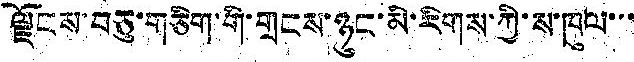ལྗོངས་བཅུ་གཅིག་གི་གྲངས་ཉུང་མི་རིགས་ཀྱི་ས་ཁུལ་་་
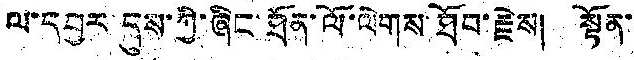ལ་དབྱར དུས་ཀྱི་ཞིང་ཐོན་ལོ་ལེགས་ཐོབ་རྗེས། སྟོན་
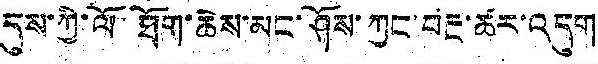དུས་ཀྱི་ལོ་ཐོག་ཆེས་མང་ཤོས་ཀྱང་བརྔ་ཚར་འདུག
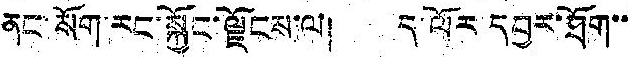ནང་སོག་རང་སྐྱོང་ལྗོངས་ལ། ད་ལོར་དབྱར་ཐོག་་
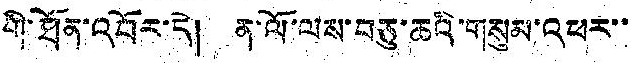གི་ཐོན་འབོར་དེ། ན་ལོ་ལས་བཅུ་ཆའི་གསུམ་འཕར་་
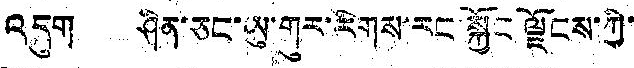འདུག ཤིན་ཅང་ཡུ་གུར་རིགས་རང སྐྱོང ལྗོངས་ཀྱི་
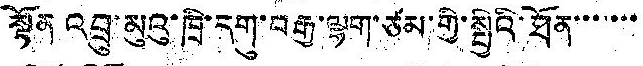སྟོན འབྲུ་མུའུ་ཁྲི་དགུ་བརྒྱ་ལྷག་ཙམ་གྱི་སྤྱིའི་ཐོན་་་་་་་
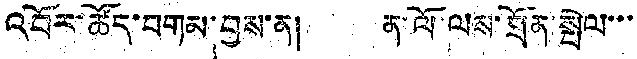འབོར་ཚོད་བགམ་བྱས་ན། ན་ལོ་ལས་ཐོན་སྤེལ་་་
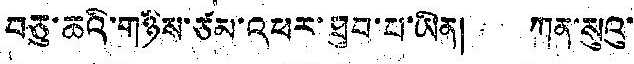བཅུ་ཆའི་གཉིས་ཙམ་འཕར་ཐུབ་པ་ཡིན། ཀན་སུའུ་
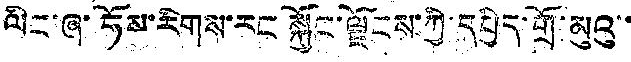ལིང་ཞ་ཧོས་རིགས་རང སྐྱོང་ལྗོངས་ཀྱི་དཔྱིད་གྲོ་མུའུ་་
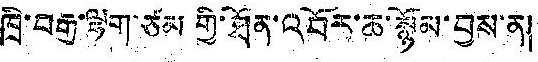ཁྲི་བརྒྱ་ལྷག་ཙམ གྱི་ཐོན་འབོར་ཆ་སྙོམ་བྱས་ན།
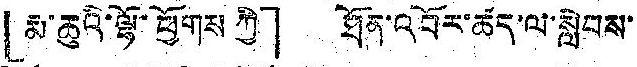「རྨ་ཆུའི་ལྷོ་ཕྱོགས ཀྱི」 ཐོན་འབོར་ཚད་ལ་སླེབས་
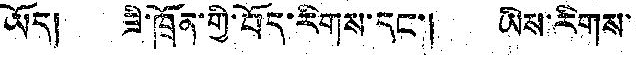ཡོད། ཟི་ཁྲོན་གྱོ་བོད་རིགས་དང་། ཡིས་རིགས་
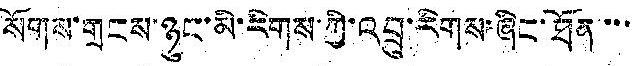སོགས་གྲངས་ཉུང་མི་རིགས་ཀྱི་འབྲུ་རིགས་ཞིང་ཐོན་་་
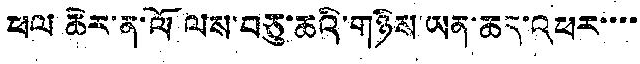ཕལ ཆེར་ན་ལོ ལས་བཅུ་ཆའི་གཉིས་ཡན་ཆད་འཕར་་་་
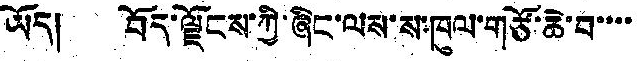ཡོད། བོད་ལྗོངས་ཀྱི་ཞིང་ལས་ས་ཁུལ་གཙོ་ཆེ་བ་་་་
